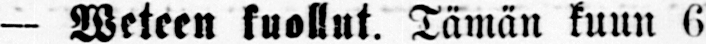— Weteen kuollut. Tämän kuun 6
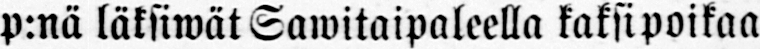p:nä läksiwät Sawitaipaleella kaksipoikaa
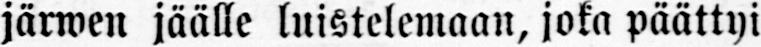järwen jäälle luistelemaan, joka päättyi
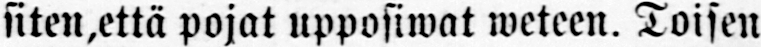siten, että pojat upposiwat weteen. Toisen
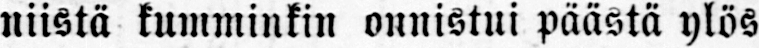niistä kumminkin onnistui päästä ylös
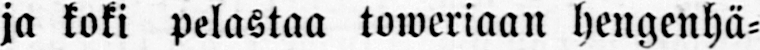ja koki pelastaa toweriaan hengenhä-
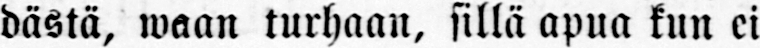dästä, waan turhaan, sillä apua kun ei
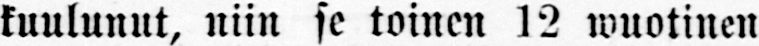kuulunut, niin se toinen 12 wuotinen
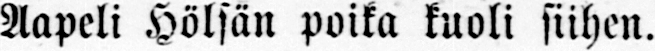Aapeli Hölsän poika kuoli siihen.
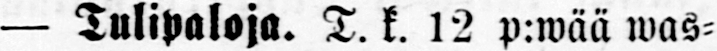— Tulipaloja. T. k. 12 p:wää was-
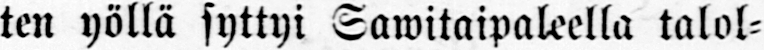ten yöllä syttyi Sawitaipaleella talol-
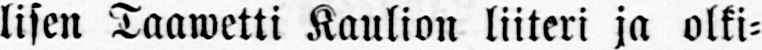lisen Taawetti Kaulion liiteri ja olki-
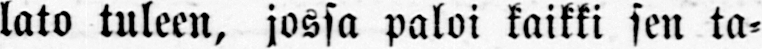lato tuleen, jossa paloi kaikki sen ta-
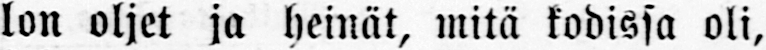lon oljet ja heinät, mitä kodissa oli,
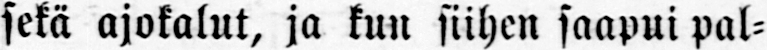sekä ajokalut, ja kun siihen saapui pal-
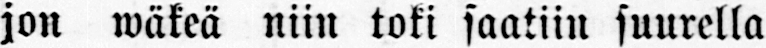jon wäkeä niin toki saatiin suurella
